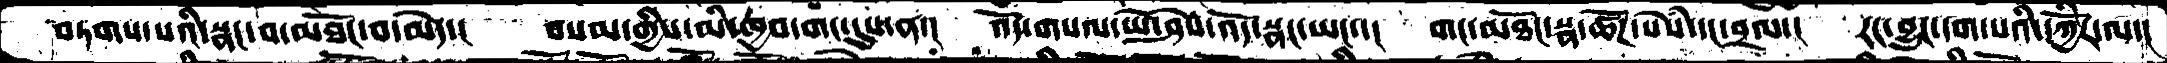བཏགས་པའི་སྣང་བ་མཐོང་བ་མེད་།  བསམ་གྱིས་མི་ཁྱབ་གང་དུས་ན་།  འོད་གསལ་ཡེ་ཤེས་འོད་སྣང་ཡང་།  གང་མཐོང་སྣ་ཚོཌ་སེཾས་དང་བྲལ་།  རང་བྱུང་དག་པའི་དཀྱིོར་ལ་།
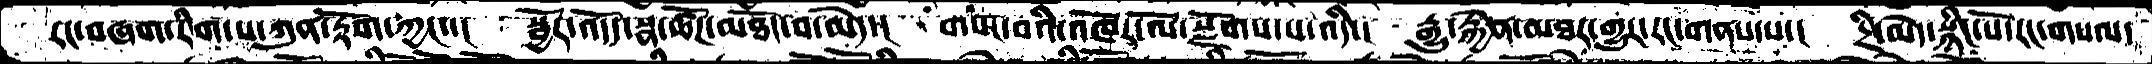རང་བཞག་རིག་པ་ཀུན་རྟོག་ཀྱང་་།  སྦྱོར་འདོད་སྣ་ཚོཌ་མཐོང་བ་མེད་།   གསང་བའི་འཁོར་ལོ་སྫོགས་པ་འདི་།  རྒྱུ་རྐྱེན་མཐར་གྱུར་རང་གནས་པ་།  དྲི་མེད་སྙིང་པོ་རང་གསལ་
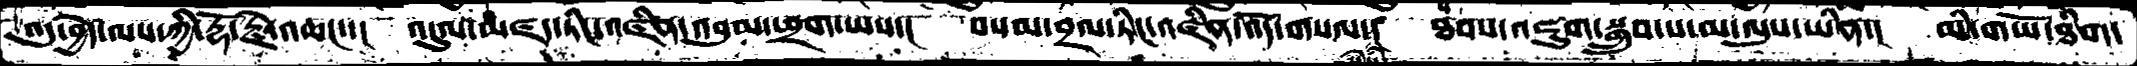འདུ་བྱེད་ལས་ཀྱི་རྡོ་རྗེ་འཆང་་།  འདུལ་མཛད་ཏིང་འཛིན་འབུམ་ཕྲག་ཡས་།  བསམ་བྲལ་ཏིང་འཛིན་འོད་གསལ་སེཾས་།  ཐབས་འཇུག་སྒྲུབ་པ་མ་ལུས་ཡིན་།  མི་གཡོ་ཐིག་
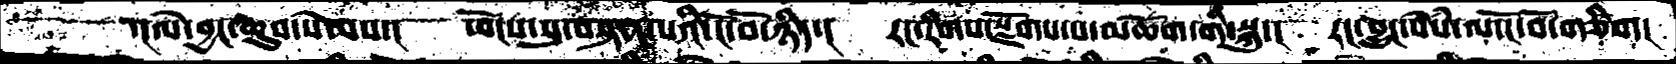་།ལེ་བྱང་ཆུབ་སེམས་།  ཡོངས་སུ་བསྟན་པའི་ངོ་བོ་ཉིད་།  རང་རིགས་སྫོགས་པ་མཆོག་གི་སྐུ་།  རང་བྱུང་སེསཾ་ལ་ངོ་བོ་གཅིག།
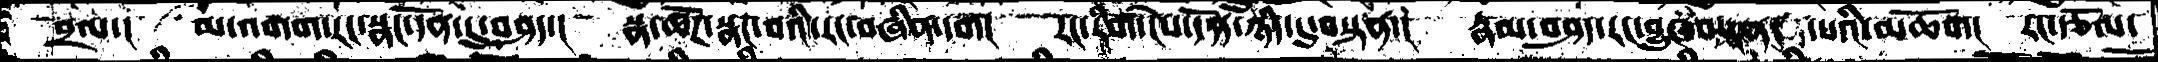བྲལ་།   མ་འགག་རང་སྣང་དོན་དུ་བཤད་།  སྣ་ཚོཌ་སྣང་བའི་རང་བཞིན་དག།  རང་རིག་ངེས་དོན་ཉིད་དུ་བསྟན་།  རྣམ་བཤད་རང་བྱུང་བསྟན་པའི་མཆོག།  རང་རྩོལ་
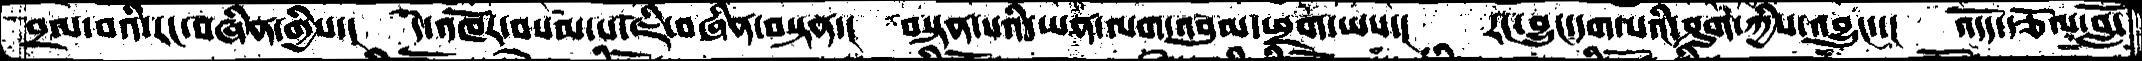བྲལ་བའི་རང་བཞིན་གྱིས་།  དེ་འཁོར་བསམ་པ་ཇི་བཞིན་བསྟན་།  བསྟན་པའི་ཡན་ལག་འབུམ་ཕྲག་ཡས་།  རང་བྱུང་དག་པའི་ཤུག་ཀྱིས་འབྱུང་་།  འདོད་རྩོལ་བློ་
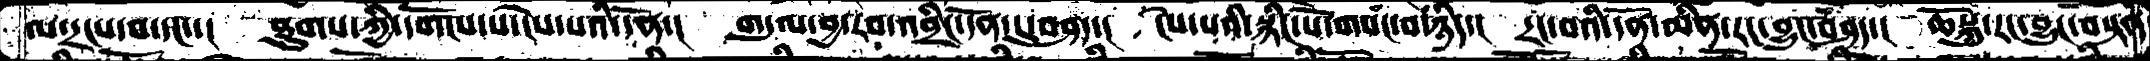ལ་དྲངས་བ་དང་་།  ཐུགས་ཀྱི་དགོངས་པ་ངེས་པའི་དོན་།  གདུལ་བྱ་རབ་འབྲིང་དོན་དུ་བཤད་།  ངེས་པའི་སྙིང་པོ་གསང་བ་ཉིད་།  དྲང་བའི་དོན་མིན་རང་བྱུང་བཤད་།  ཆོསྐུ་རང་བྱུང་བསྟན་
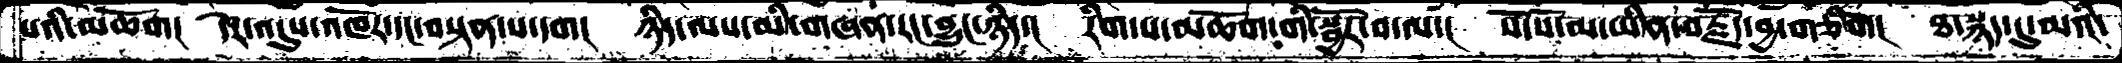པའི་མཆོག།  དེར་འདུས་འཁོར་དང་བསྟན་པ་དག།    ཉིད་ལས་མི་གཞན་རང་བྱུང་ཉིད་།   རིག་པ་མཆོག་གི་སྦྱོར་བ་ལ་།   སོ་སོ་མ་ཡིན་བརྗོད་བྱ་གཅིག།  ཐ་སྙད་དུ་མའི་
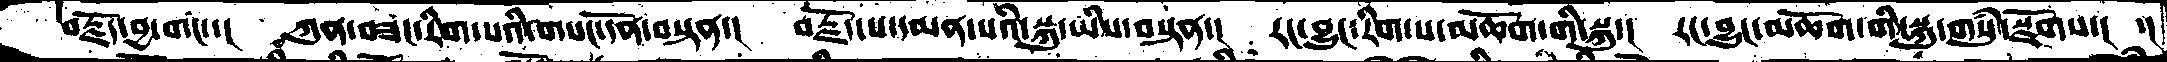བརྗོད་བྱ་གང་་།   ཀུན་བཟང་རིག་པའི་གསང་དོན་བསྟན་།   བརྗོད་པ་དམན་པའི་སྐུ་ཡིས་བསྟན་།   རང་བྱུང་རིག་པ་མཆོག་གི་སྐུ་།   རང་བྱུང་མཆོག་གི་སྐུ་གསུཾ་སྫོགས་།  ་།
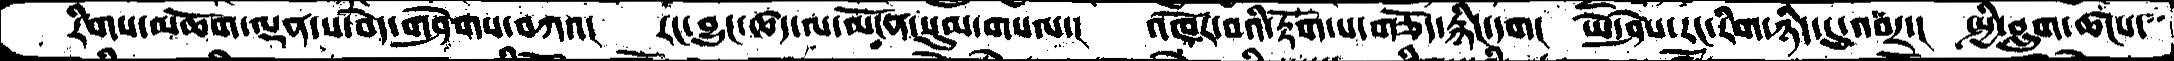རིགས་མཆོག་ལྡན་པ་བདེ་གཤེགས་བཀའ།   རང་བྱུང་ཚད་ལ་མངོན་སུམ་གསལ་།   འཁོར་བའི་རྟོག་པ་གཅོད་རྙིང་དག།  ཡེ་ཤེས་རང་རིག་ཉིད་དུ་འབར་།   སྤྱི་བླུག་ཚངས་
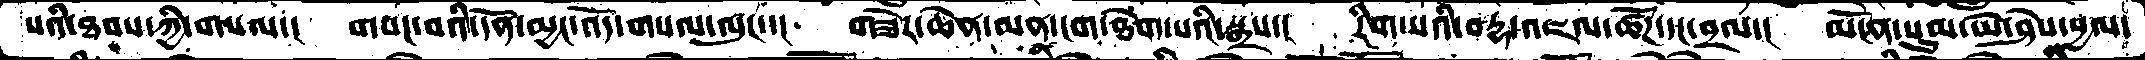པའི་ཐབས་ཀྱི་གསལ་།   གསང་བའི་དོན་མྱང་འོད་གསལ་ལུང་་།   གཟེར་ཆེན་མན་ངག་ཐེག་པའི་སྒྲས་།   རིག་པའི་བརྡ་འཇལ་ཚོཌ་དང་བྲལ་།   མངོན་སུམ་ཡེ་ཤེས་སྱལ་
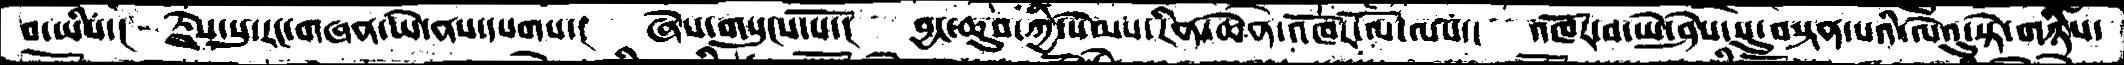བ་ཡིས་།  རྗེས་སུ་རང་བཞིན་ཡེ་ནས་དཔགས་།  ཞེས་གསུངས་སོ་།  བྱང་ཆུབ་ཀྱི་སེམས་རིན་ཆེན་འཁོར་ལོ་ལས་།  འཁོར་བ་ཡེ་ཤེས་སུ་བསྟན་པའི་ལེའུ་སྟེ་གཉིས་
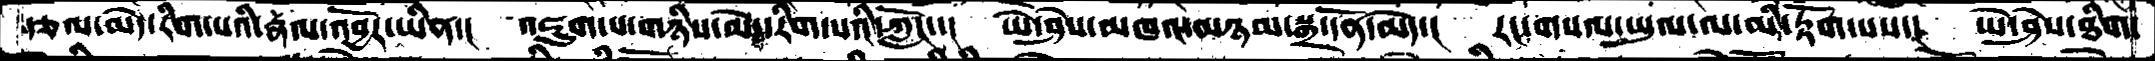རྩལ་མེད་རིག་པའི་རྣལ་འབྱོར་ཡིན་།  འཇུག་པ་གཉིས་མེད་རིག་པའི་ཀློང་་།  ཡེ་ཤེས་མཁའ་མཉམ་སྒྲ་དོན་མེད་།  རང་གསལ་ཡུལ་ལ་མི་རྟོག་པས་།  ཡེ་ཤེས་ཐིག་
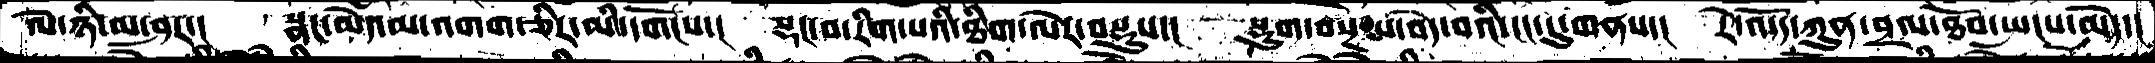ལེ་ཉི་མ་ཤར་།   སྣང་མེད་མ་འགག་ཅིར་མི་དགོངས་།   སྡང་བ་རིག་པའི་ཐིག་ལེར་བསྡུས་།   སྡུག་བསྔལ་བདེ་བའི་ངང་དུ་གནས་།  རེ་འདོད་ཀུན་བྲལ་ཐོབ་སྤངས་མེད་།
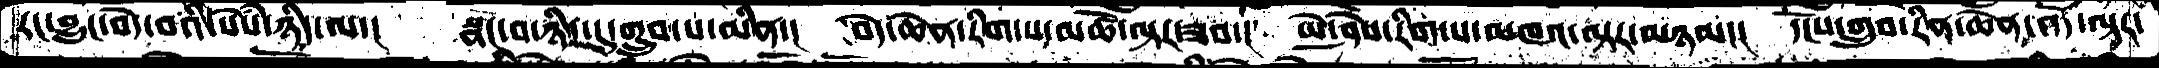རང་བྱུང་བདེ་བའི་སེཾས་ཉིད་ལ་།  སྣང་བ་ཉིད་དུ་གྲུབ་པ་མིན་།   བདེ་ཆེན་རིག་སད་མཚོ་ལྟར་ཟབ་།  ཡེ་ཤེས་རིག་པ་མཁའ་ལྟར་མཉམ་།  དངོས་གྲུབ་རིན་ཆེན་འོད་ལྟར་
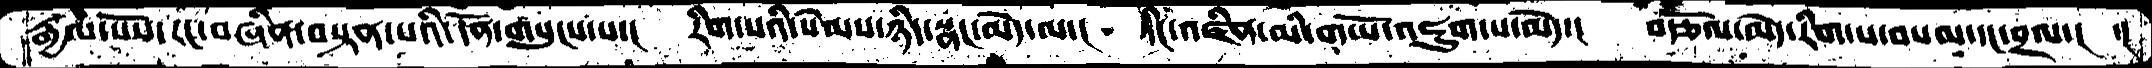རྒྱལ་པོས་རང་བཞིན་བསྟན་པའི་དོན་གསུངས་པ་།   རིག་པའི་སེམས་ཉིད་སྣང་མེད་ལ་།   ཏིང་འཛིན་མི་གཡོ་འཇུག་པ་མེད་།  བརྩོལ་མེད་རིག་པ་བསམ་དང་བྲལ་།  ་།
